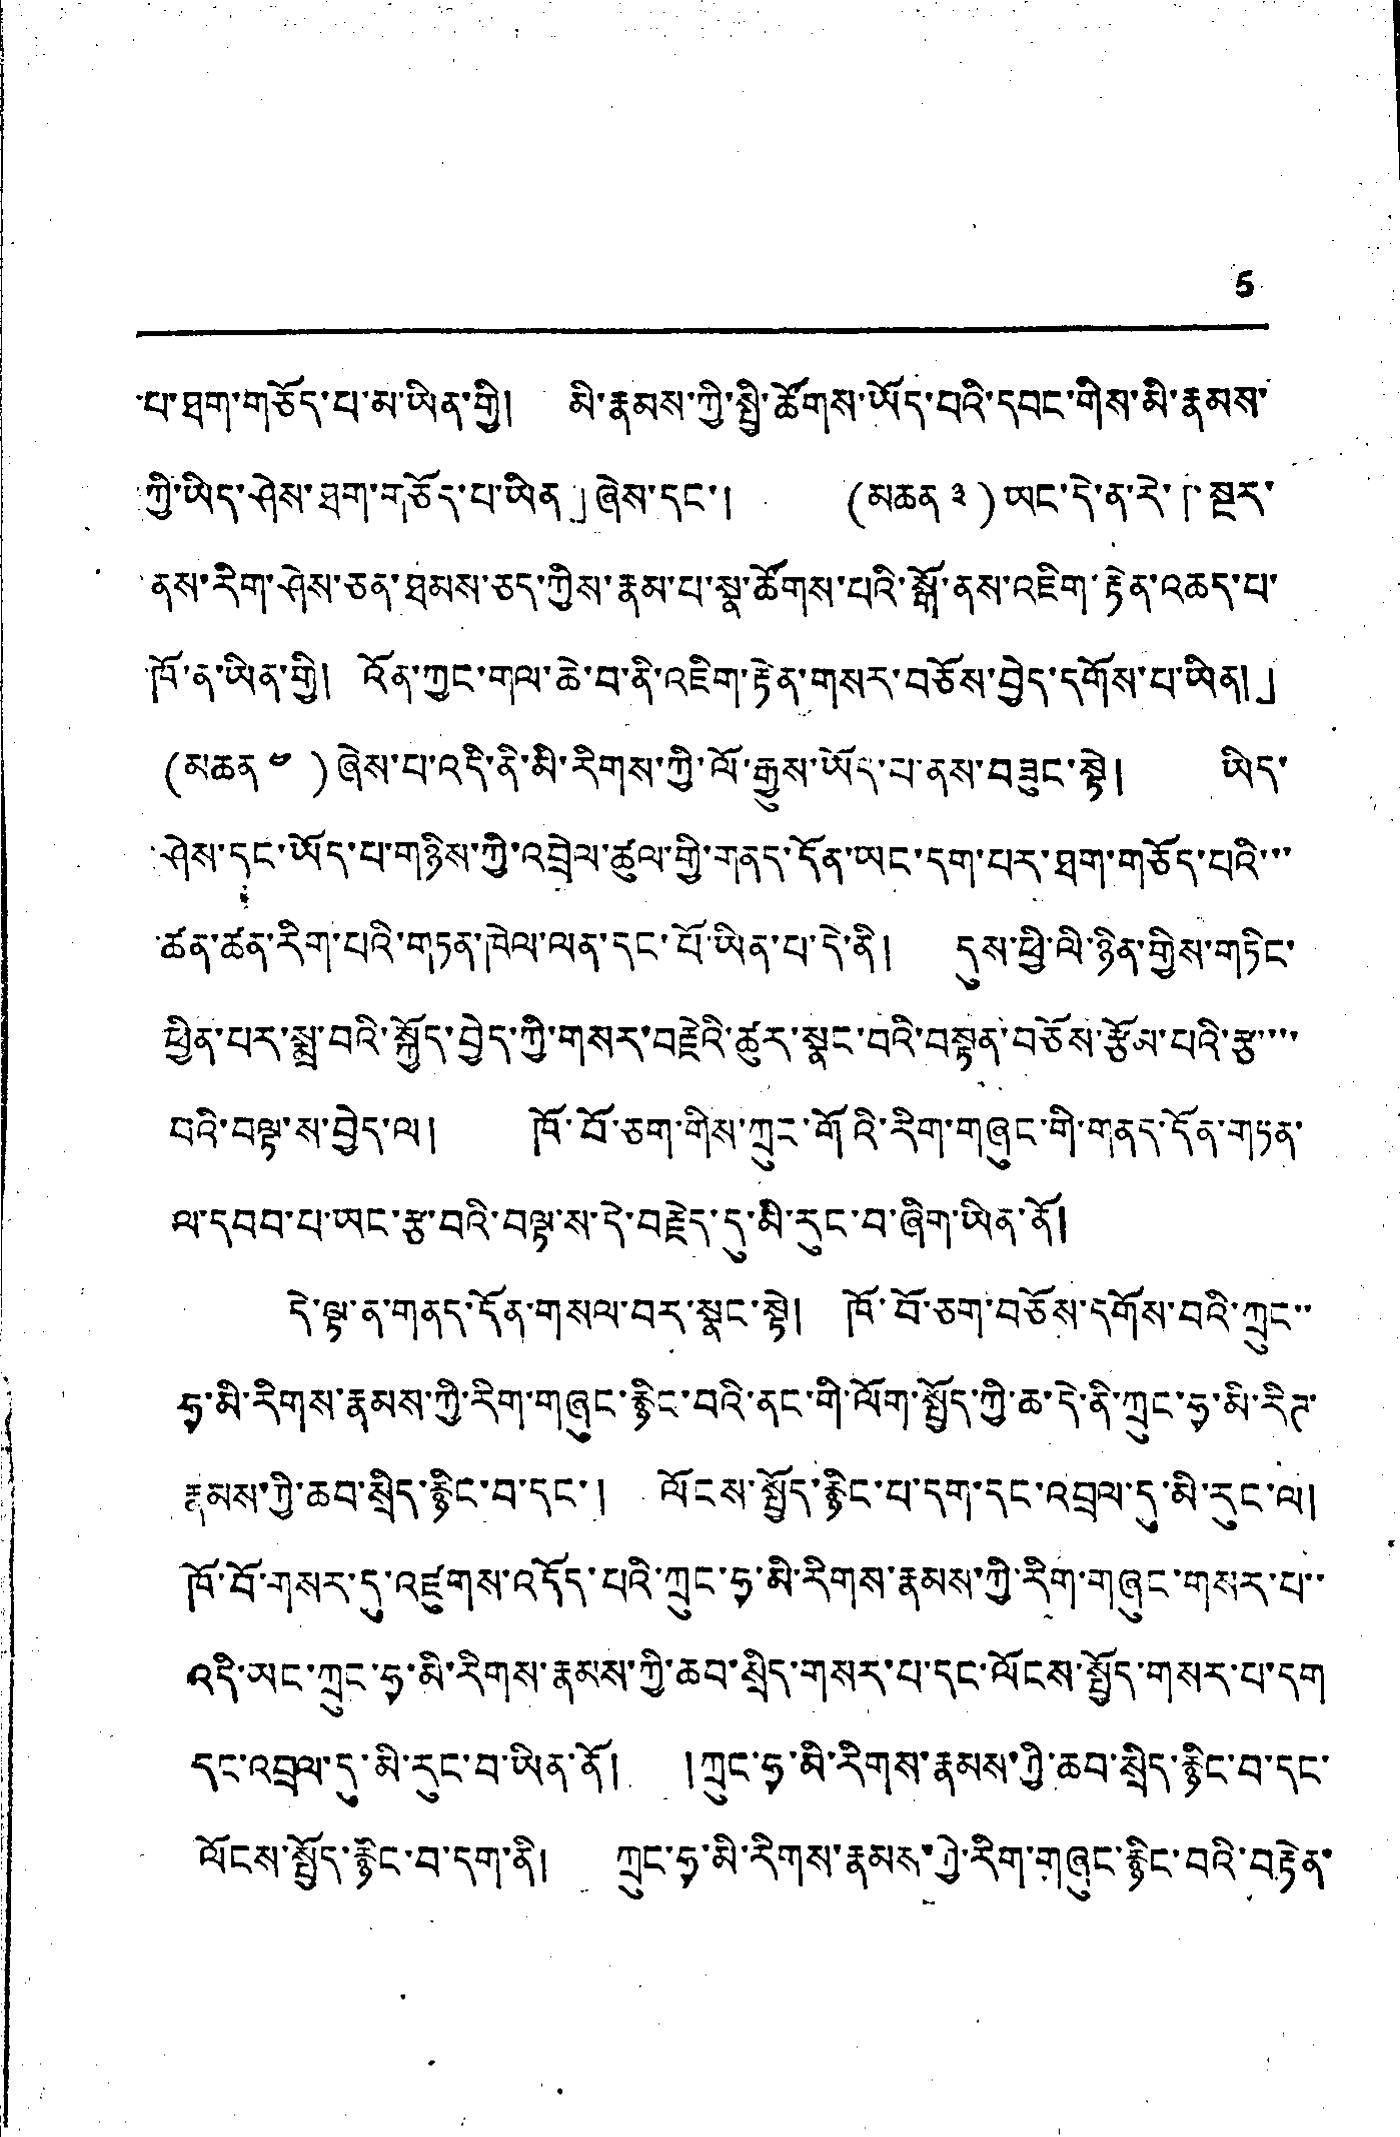5
པ་ཐག་གཅོད་པ་མ་ཡིན་གྱི། མི་རྣམས་ཀྱི་སྤྱི་ཚོགས་ཡོད་བའི་དབང་གིས་མི་རྣམས་
ཀྱི་ཡིད་ཤེས་ཐག་གཅོད་པ་ཡིན」ཞེས་དང་། (མཆན ༣) ཡང་དེ་ན་རེ་「སྔར་
ནས་རིག་ཤེས་ཅན་ཐམས་ཅད་ཀྱིས་རྣམ་པ་སྣ་ཚོགས་པའི་སྒོ་ནས་འཇིག་རྟེན་འཆད་པ་
ཁོ་ན་ཡིན་གྱི། འོན་ཀྱང་གལ་ཆེ་བ་ནི་འཇིག་རྟེན་གསར་བཅོས་བྱེད་དགོས་པ་ཡིན།」
(མཆན ༤)ཞེས་པ་འདི་ནི་མི་རིགས་ཀྱི་ལོ་རྒྱུས་ཡོད་པ་ནས་བཟུང་སྟེ། ཡིད་
ཤེས་དང་ཡོད་པ་གཉིས་ཀྱི་འབྲེལ་ཚུལ་གྱི་གནད་དོན་ཡང་དག་པར་ཐག་གཅོད་པའི་་་
ཚན་ཚན་རིག་པའི་གཏན་ཁེལ་ལན་དང་པོ་ཡིན་པ་དེ་ནི། དུས་ཕྱི་ལི་ཉིན་གྱིས་གཏིང་
ཕྱིན་པར་སྨྲ་བའི་སྐྱོད་བྱེད་ཀྱི་གསར་བརྗེའི་ཚུར་སྣང་བའི་བསྟན་བཅོས་རྩོམ་པའི་རྩ་་་་
བའི་བལྟ་ས་བྱེད་ལ། ཁོ་བོ་ཅག་གིས་ཀྲུང་གོའི་རིག་གཞུང་གི་གནད་དོན་གཏན་
ལ་དབབ་པ་ཡང་རྩ་བའི་བལྟ་ས་དེ་བརྗེད་དུ་མི་རུང་བ་ཞིག་ཡིན་ནོ།
དེ་ལྟ་ན་གནད་དོན་གསལ་བར་སྣང་སྟེ། ཁོ་བོ་ཅག་བཅོས་དགོས་བའི་ཀྲུང་་
ཧྭ་མི་རིགས་རྣམས་ཀྱི་རིག་གཞུང་རྙིང་བའི་ནང་གི་ལོག་སྤྱོད་ཀྱི་ཆ་དེ་ནི་ཀྲུང་ཧྭ་མི་རིཊ་
རྣམས་ཀྱི་ཆབ་སྲིད་རྙིང་བ་དང་། ལོངས་སྤྱོད་རྙིང་པ་དག་དང་འབྲལ་དུ་མི་རུང་ལ།
ཁོ་བོ་གསར་དུ་འཛུགས་འདོད་པའི་ཀྲུང་ཧྭ་མི་རིགས་རྣམས་ཀྱི་རིག་གཞུང་གསར་པ་་
འདི་ཡང་ཀྲུང་ཧྭ་མི་རིགས་རྣམས་ཀྱི་ཆབ་སྲིད་གསར་པ་དང་ལོངས་སྤྱོད་གསར་པ་དག
དང་འབྲུལ་དུ་མི་རུང་བ་ཡིན་ནོ། །ཀྲུང་ཧྭ་མི་རིགས་རྣམས་ཀྱི་ཆབ་སྲིད་རྙིང་བ་དང་
ལོངས་སྤྱོད་རྙིང་བ་དག་ནི། ཀྲུང་ཧྭ་མི་རིགས་རྣམར་གྱི་རིག་གཞུང་རྙིང་བའི་བརྟེན་
